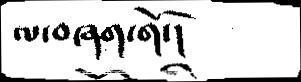ལ་བཞག་གོ་།
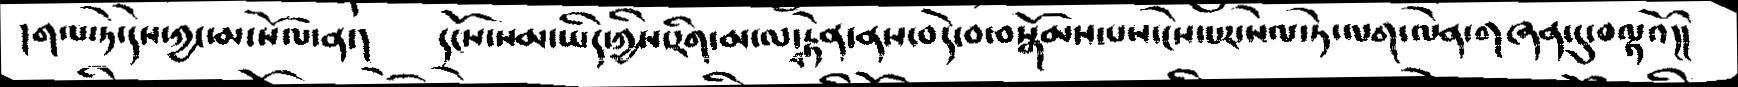།གལ་ཏེ་དེས་ཀྱང་མ་སོལ་ན་།   དངོས་སམ་ཡིད་ཀྱིས་རིག་མ་ལ་བརྟེན་ནས་བདེ་བ་བསྒོམས་པས་ངེས་པར་སེལ་ཏེ་ལག་ལེན་གཞན་དུ་བལྟའོ།།
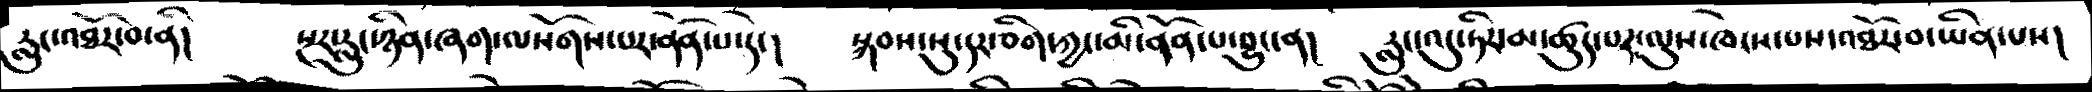རླུང་འཐོར་བ་ནི།     སྔར་རླུང་ཉིན་ཞག་ལསོགས་པར་ནོན་པ་དེ་།     སྐབས་སུ་དར་ཅིག་ཀྱང་མི་ནོན་པ་བྱུང་ན།    རླུང་འདུ་ཏིར་མ་ཚུད་པར་ལུས་ཁེངས་པས་འཐོར་བ་ཡིན་པས།
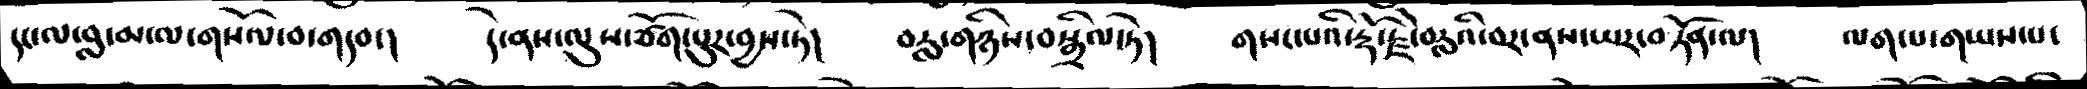དང་ལ་བླ་མ་ལ་གསོལ་བ་གདབ་།    དེ་ནས་ལུས་ཙོག་པུར་བྱས་ཏེ།    བརླ་གཉིས་བསྒྲིལ་ཏེ།    གསང་པའི་རྡོ་རྗེ་བརླའི་བར་ནས་ཡར་བཏོན་ལ།    ལག་པ་གཡས་པ་
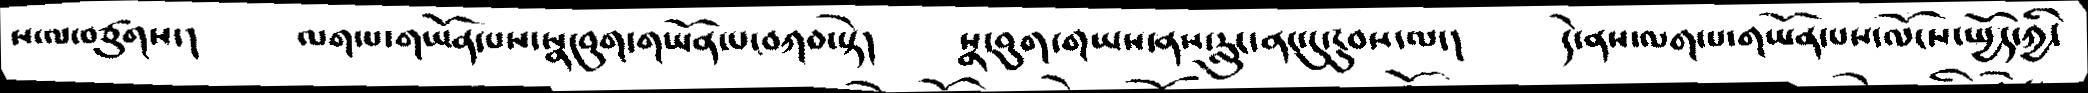ས་ལ་བཙུགས་།   ལག་པ་གཡོན་པས་སྣ།བུག་གཡོན་པ་བཀབ་སྟེ།   སྣ་བུག་གཡས་ནས་རླུང་ནང་དུ་རྔུབས་ལ་།   དེ་ནས་ལག་པ་གཡོན་པས་ལོངས་སྤྱོད་ཀྱི་
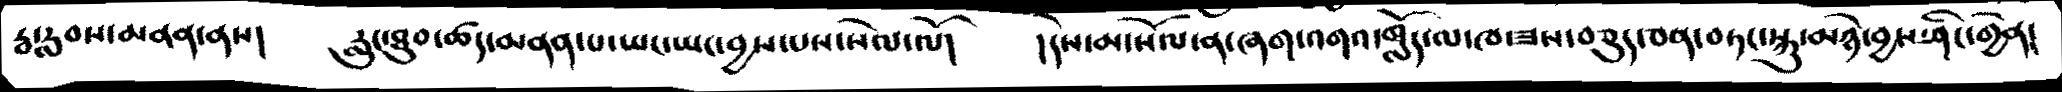རྦ་རླབས་མནན་ནས།   རླུང་ཐུབ་ཚད་མནན་པ་ཡང་ཡང་བྱས་པས་སེལ་ལོ།    །དེས་མ་སོལ་ན་ཞག་འགའ་གློད་ལ་ཁ་ཟས་བཅུད་ཅན་བཏང་སྐུ་མཉེ་བྱས་ཤིང་གྱེན།
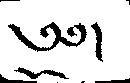༄༅།
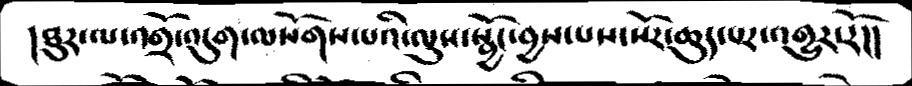།ཐུར་ལ་འགྲོ་འདུག་ལསོགས་པའི་ལུས་སྦྱོང་བྱས་པས་སོར་ཆུད་པར་འགྱུར་རོ།།
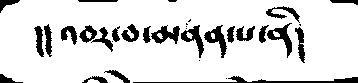།།འབར་བ་མནན་པ་ནི།
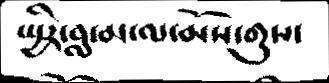སྤྱིར་བླ་མ་ལ་མོས་གུས་
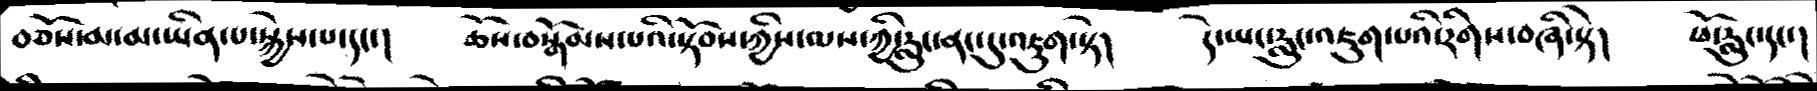བཅོས་མ་མ་ཡིན་པ་སྐྱེས་པ་དང་།   ཆོས་བསྒོམས་པའི་སྟོབས་ཀྱིས་ལས་ཀྱི་རླུང་ནང་དུ་འཇུག་སྟེ།   དེ་ཡང་རླུང་འཇུག་པའི་རིགས་བཞི་སྟེ།   ཕོ་རླུང་དང་།
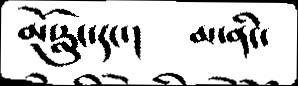མོ་རླུང་དང་།   མ་ནིང་
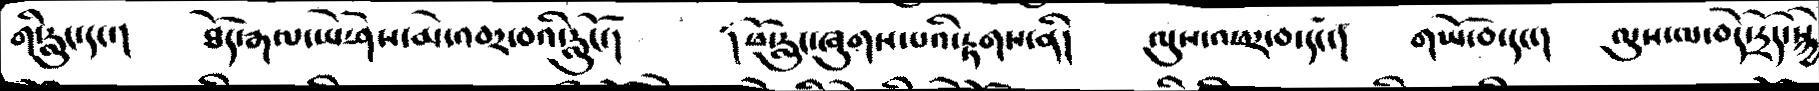གི་རླུང་དང་།   ཐོད་རྒལ་ཡེ་ཤེས་མེ་འབར་བའི་རླུངོ་།    །ཕོ་རླུང་ཞུགས་པའི་རྟགས་ནི།   ལུས་འཕར་བ་དང་།   གཡོ་བ་དང་།   ལུས་ལ་བདེ་དྲོད་སྐྱེ་
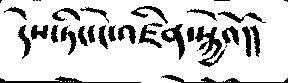དེས་ཏིང་ངེ་འཛིན་སྐྱེའོ།།
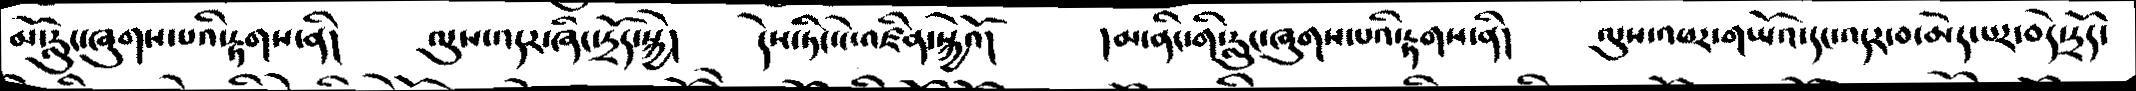མོ་རླུང་ཞུགས་པའི་རྟགས་ནི།    ལུས་འདར་ཞིང་དྲོད་སྐྱེ།    དེས་ཏིང་ངེ་འཛིན་སྐྱེའོ།    །མ་ནིང་གི་རླུང་ཞུགས་པའི་རྟགས་ནི།     ལུས་འཕར་གཡོའ་དང་འདར་བ་མེད་པར་བདེ་དྲོད་
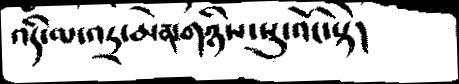འདི་ལ་འདྲ་མེན་གཉིས་སུ་འོང་སྟེ།
